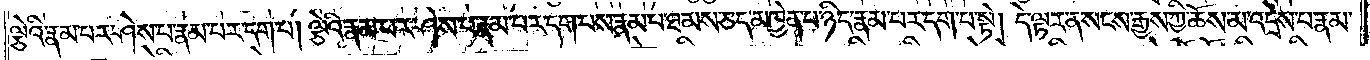ལྕེའི་རྣམ་པར་ཤེས་པ་རྣམ་པར་དག་པ། ལྕེའི་རྣམ་པར་ཤེས་པ་རྣམ་པར་དག་པས་རྣམ་པ་ཐམས་ཅད་མཁྱེན་པ་ཉིད་རྣམ་པར་དག་པ་སྟེ། དེ་ལྟར་ན་སངས་རྒྱས་ཀྱི་ཆོས་མ་འདྲེས་པ་རྣམ་
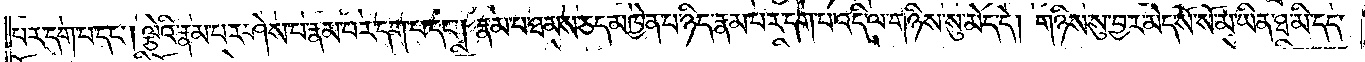པར་དག་པ་དང༌། ལྕེའི་རྣམ་པར་ཤེས་པ་རྣམ་པར་དག་པ་དང༌། རྣམ་པ་ཐམས་ཅད་མཁྱེན་པ་ཉིད་རྣམ་པར་དག་པ་འདི་ལ་གཉིས་སུ་མེད་དེ། གཉིས་སུ་བྱར་མེད་སོ་སོ་མ་ཡིན་ཐ་མི་དད་
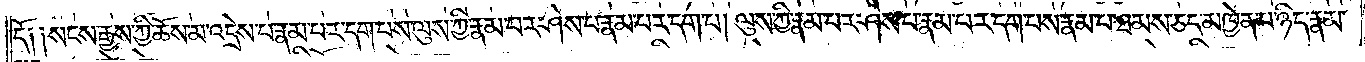དོ༑ ༑སངས་རྒྱས་ཀྱི་ཆོས་མ་འདྲེས་པ་རྣམ་པར་དག་པས་ལུས་ཀྱི་རྣམ་པར་ཤེས་པ་རྣམ་པར་དག་པ། ལུས་ཀྱི་རྣམ་པར་ཤེས་པ་རྣམ་པར་དག་པས་རྣམ་པ་ཐམས་ཅད་མཁྱེན་པ་ཉིད་རྣམ་
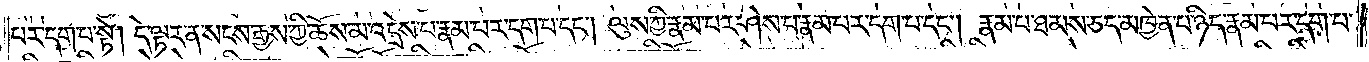པར་དག་པ་སྟེ། དེ་ལྟར་ན་སངས་རྒྱས་ཀྱི་ཆོས་མ་འདྲེས་པ་རྣམ་པར་དག་པ་དང༌། ལུས་ཀྱི་རྣམ་པར་ཤེས་པ་རྣམ་པར་དག་པ་དང༌། རྣམ་པ་ཐམས་ཅད་མཁྱེན་པ་ཉིད་རྣམ་པར་དག་པ་
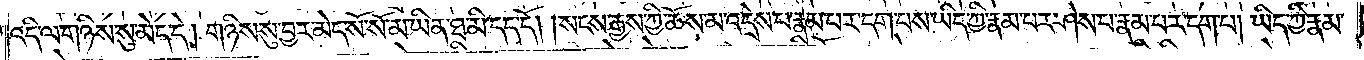འདི་ལ་གཉིས་སུ་མེད་དེ། གཉིས་སུ་བྱར་མེད་སོ་སོ་མ་ཡིན་ཐ་མི་དད་དོ། །སངས་རྒྱས་ཀྱི་ཆོས་མ་འདྲེས་པ་རྣམ་པར་དག་པས་ཡིད་ཀྱི་རྣམ་པར་ཤེས་པ་རྣམ་པར་དག་པ། ཡིད་ཀྱི་རྣམ་
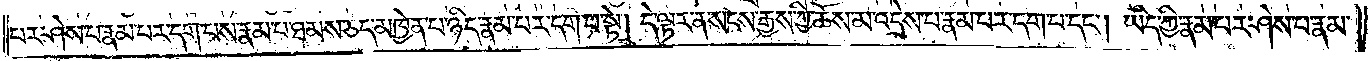པར་ཤེས་པ་རྣམ་པར་དག་པས་རྣམ་པ་ཐམས་ཅད་མཁྱེན་པ་ཉིད་རྣམ་པར་དག་པ་སྟེ། དེ་ལྟར་ན་སངས་རྒྱས་ཀྱི་ཆོས་མ་འདྲེས་པ་རྣམ་པར་དག་པ་དང༌། ཡིད་ཀྱི་རྣམ་པར་ཤེས་པ་རྣམ་
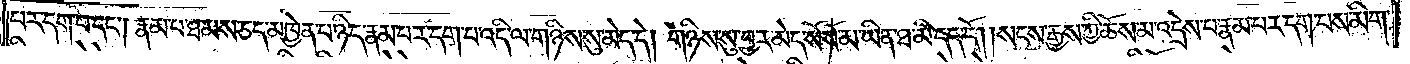པར་དག་པ་དང༌། རྣམ་པ་ཐམས་ཅད་མཁྱེན་པ་ཉིད་རྣམ་པར་དག་པ་འདི་ལ་གཉིས་སུ་མེད་དེ། གཉིས་སུ་བྱར་མེད་སོ་སོ་མ་ཡིན་ཐ་མི་དད་དོ། །སངས་རྒྱས་ཀྱི་ཆོས་མ་འདྲེས་པ་རྣམ་པར་དག་པས་མིག་
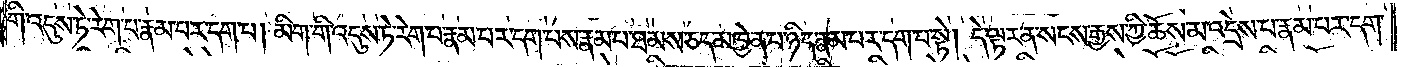གི་འདུས་ཏེ་རེག་པ་རྣམ་པར་དག་པ། མིག་གི་འདུས་ཏེ་རེག་པ་རྣམ་པར་དག་པས་རྣམ་པ་ཐམས་ཅད་མཁྱེན་པ་ཉིད་རྣམ་པར་དག་པ་སྟེ། དེ་ལྟར་ན་སངས་རྒྱས་ཀྱི་ཆོས་མ་འདྲེས་པ་རྣམ་པར་དག་
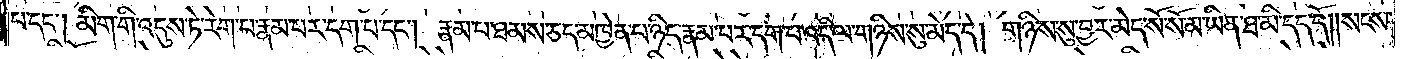པ་དང༌། མིག་གི་འདུས་ཏེ་རེག་པ་རྣམ་པར་དག་པ་དང༌། རྣམ་པ་ཐམས་ཅད་མཁྱེན་པ་ཉིད་རྣམ་པར་དག་པ་འདི་ལ་གཉིས་སུ་མེད་དེ། གཉིས་སུ་བྱར་མེད་སོ་སོ་མ་ཡིན་ཐ་མི་དད་དོ། །སངས་
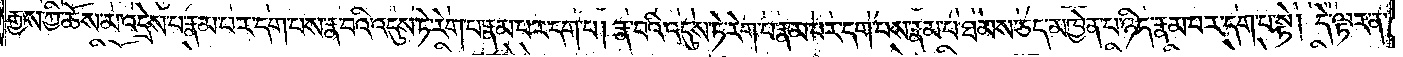རྒྱས་ཀྱི་ཆོས་མ་འདྲེས་པ་རྣམ་པར་དག་པས་རྣ་བའི་འདུས་ཏེ་རེག་པ་རྣམ་པར་དག་པ། རྣ་བའི་འདུས་ཏེ་རེག་པ་རྣམ་པར་དག་པས་རྣམ་པ་ཐམས་ཅད་མཁྱེན་པ་ཉིད་རྣམ་པར་དག་པ་སྟེ། དེ་ལྟར་ན་
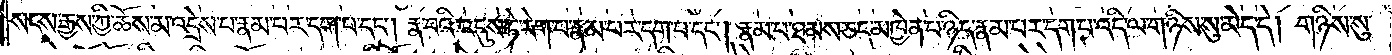སངས་རྒྱས་ཀྱི་ཆོས་མ་འདྲེས་པ་རྣམ་པར་དག་པ་དང༌། རྣ་བའི་འདུས་ཏེ་རེག་པ་རྣམ་པར་དག་པ་དང༌། རྣམ་པ་ཐམས་ཅད་མཁྱེན་པ་ཉིད་རྣམ་པར་དག་པ་འདི་ལ་གཉིས་སུ་མེད་དེ། གཉིས་སུ་
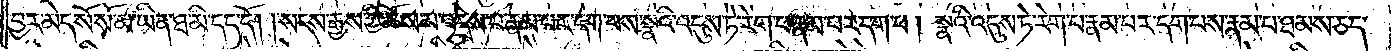བྱར་མེད་སོ་སོ་མ་ཡིན་ཐ་མི་དད་དོ། །སངས་རྒྱས་ཀྱི་ཆོས་མ་འདྲེས་པ་རྣམ་པར་དག་པས་སྣའི་འདུས་ཏེ་རེག་པ་རྣམ་པར་དག་པ། སྣའི་འདུས་ཏེ་རེག་པ་རྣམ་པར་དག་པས་རྣམ་པ་ཐམས་ཅད་
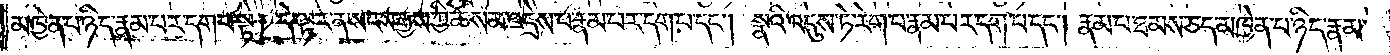མཁྱེན་པ་ཉིད་རྣམ་པར་དག་པ་སྟེ། དེ་ལྟར་ན་སངས་རྒྱས་ཀྱི་ཆོས་མ་འདྲེས་པ་རྣམ་པར་དག་པ་དང༌། སྣའི་འདུས་ཏེ་རེག་པ་རྣམ་པར་དག་པ་དང༌། རྣམ་པ་ཐམས་ཅད་མཁྱེན་པ་ཉིད་རྣམ་
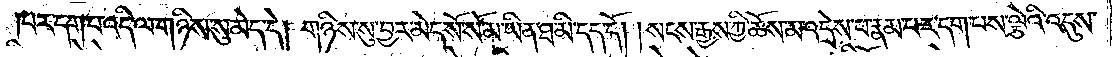པར་དག་པ་འདི་ལ་གཉིས་སུ་མེད་དེ། གཉིས་སུ་བྱར་མེད་སོ་སོ་མ་ཡིན་ཐ་མི་དད་དོ། །སངས་རྒྱས་ཀྱི་ཆོས་མ་འདྲེས་པ་རྣམ་པར་དག་པས་ལྕེའི་འདུས་
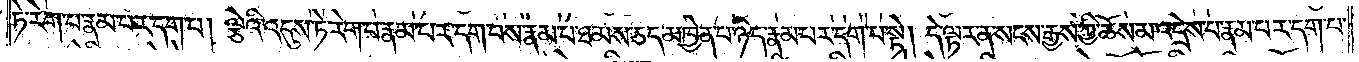ཏེ་རེག་པ་རྣམ་པར་དག་པ། ལྕེའི་འདུས་ཏེ་རེག་པ་རྣམ་པར་དག་པས་རྣམ་པ་ཐམས་ཅད་མཁྱེན་པ་ཉིད་རྣམ་པར་དག་པ་སྟེ། དེ་ལྟར་ན་སངས་རྒྱས་ཀྱི་ཆོས་མ་འདྲེས་པ་རྣམ་པར་དག་པ་
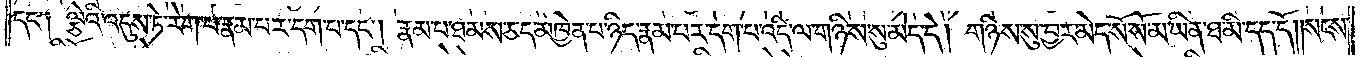དང་༑ ལྕེའི་འདུས་ཏེ་རེག་པ་རྣམ་པར་དག་པ་དང༌། རྣམ་པ་ཐམས་ཅད་མཁྱེན་པ་ཉིད་རྣམ་པར་དག་པ་འདི་ལ་གཉིས་སུ་མེད་དེ། གཉིས་སུ་བྱར་མེད་སོ་སོ་མ་ཡིན་ཐ་མི་དད་དོ། །སངས་
